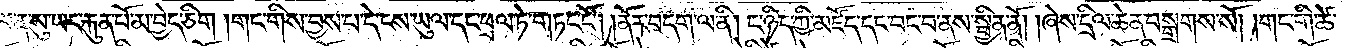ཡུལ་ན་སུ་ཡང་རྐུན་པོ་མ་བྱེད་ཅིག །གང་གིས་བྱས་པ་དེ་ངས་ཡུལ་དང་ཕྲལ་ཏེ་གཏང་ངོ༌། །ནོར་བདག་ལ་ནི་ང་ཉིད་ཀྱི་མཛོད་དང་བང་བ་ནས་སྦྱིན་ནོ། །ཞེས་དྲིལ་ཆེན་བསྒྲགས་སོ། །གང་གི་ཚེ་
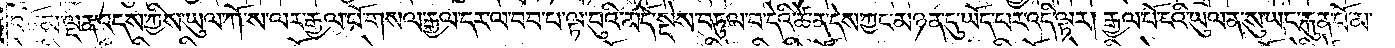བཅོམ་ལྡན་འདས་ཀྱིས་ཡུལ་ཀོ་ས་ལར་རྒྱལ་པོ་གསལ་རྒྱལ་དར་ལ་བབ་པ་ལྟ་བུའི་མདོ་སྡེས་བཏུལ་བ་དེའི་ཚེ་ན་དེས་ཀྱང་མཉན་དུ་ཡོད་པར་འདི་ལྟར། རྒྱལ་པོ་ངའི་ཡུལ་ན་སུ་ཡང་རྐུན་པོ་མ་
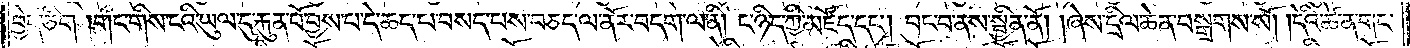བྱེད་ཅིག །གང་གིས་ངའི་ཡུལ་དུ་རྐུན་པོ་བྱས་པ་དེ་ཆད་པ་བསད་པས་བཅད་ལ་ནོར་བདག་ལ་ནི། ང་ཉིད་ཀྱི་མཛོད་དང༌། བང་བ་ནས་སྦྱིན་ནོ། །ཞེས་དྲིལ་ཆེན་བསྒྲགས་སོ། །དེའི་ཚེ་ན་གང་
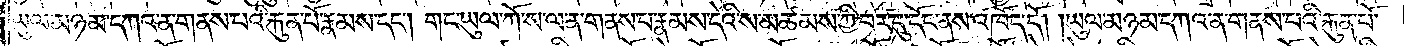ཡུལ་མཉམ་དཀའ་ན་གནས་པའི་རྐུན་པོ་རྣམས་དང༌། གང་ཡུལ་ཀོ་ས་ལ་ན་གནས་པ་རྣམས་དེའི་ས་མཚམས་ཀྱི་བར་དུ་དོང་ནས་འཁོད་དོ། །ཡུལ་མཉམ་དཀའ་ན་གནས་པའི་རྐུན་པོ་
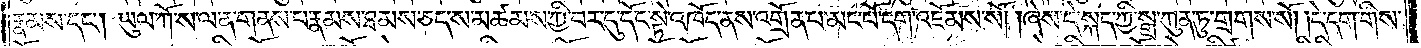རྣམས་དང༌། ཡུལ་ཀོ་ས་ལ་ན་གནས་པ་རྣམས་ཐམས་ཅད་ས་མཚམས་ཀྱི་བར་དུ་དོང་སྟེ་འཁོད་ནས་འགྲོན་པ་མང་པོ་དག་འཇོམས་སོ། །ཞེས་དེ་སྐད་ཀྱི་སྒྲ་ཀུན་ཏུ་གྲགས་སོ། །དེ་དག་གིས་
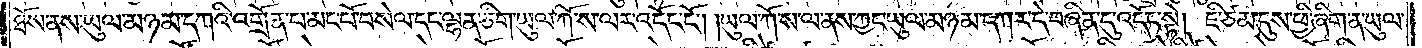ཐོས་ནས་ཡུལ་མཉམ་དཀའི་འགྲོན་པ་མང་པོ་བསེལ་དང་ལྷན་ཅིག་ཡུལ་ཀོ་ས་ལར་འདོང་ངོ༌། །ཡུལ་ཀོ་ས་ལ་ནས་ཀྱང་ཡུལ་མཉམ་དཀར་དེ་བཞིན་དུ་འདོང་སྟེ། ཇི་ཙམ་དུས་ཕྱི་ཞིག་ན་ཡུལ་
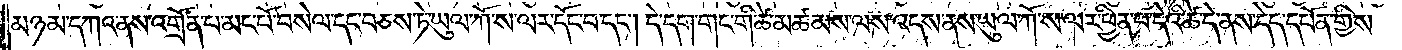མཉམ་དཀའ་ནས་འགྲོན་པ་མང་པོ་བསེལ་དང་བཅས་ཏེ་ཡུལ་ཀོ་ས་ལར་དོང་བ་དང༌། དེ་དག་གང་གི་ཚེ་མཚམས་ལས་འདས་ནས་ཡུལ་ཀོ་ས་ལར་ཕྱིན་པ་དེའི་ཚེ་དེ་ནས་དེད་དཔོན་གྱིས་
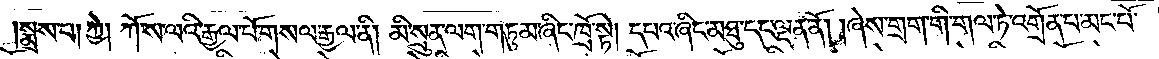སྨྲས་པ། ཀྱེ། ཀོ་ས་ལའི་རྒྱལ་པོ་གསལ་རྒྱལ་ནི། མི་སྲུན་ལག་གཏུམ་ཞིང་ཁྲོ་སྟེ། དཔའ་ཞིང་མཐུ་དང་ལྡན་ནོ། །ཞེས་གྲག་གི་གལ་ཏེ་འགྲོན་པ་མང་པོ་
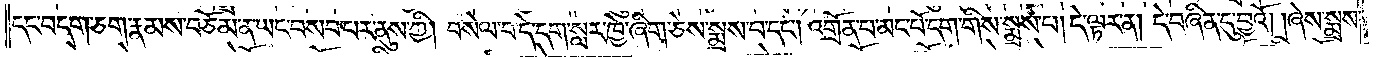དང་བདག་ཅག་རྣམས་བཅོམ་ན་ཡང་བསབ་པར་ནུས་ཀྱི། བསེལ་བ་དེ་དག་སླར་ཁྱེ་ཞིག་ཅེས་སྨྲས་པ་དང༌། འགྲོན་པ་མང་པོ་དག་གིས་སྨྲས་པ། དེ་ལྟར་ན། དེ་བཞིན་དུ་བྱའོ། །ཞེས་སྨྲས་
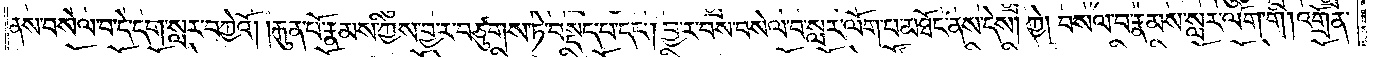ནས་བསེལ་བ་དེ་དག་སླར་བཀྱེའོ། །རྐུན་པོ་རྣམས་ཀྱིས་བྱ་ར་བཙུགས་ཏེ་བསྡད་པ་དང༌། བྱ་ར་བས་བསེལ་བ་སླར་ལོག་པ་མཐོང་ནས་དེས། ཀྱེ། བསལ་བ་རྣམས་སླར་ལོག་གི། འགྲོན་
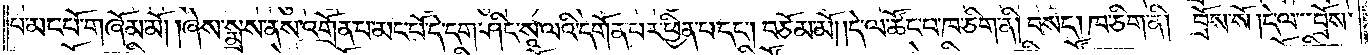པ་མང་པོ་གཞོམ་མོ། །ཞེས་སྨྲས་ནས་འགྲོན་པ་མང་པོ་དེ་དག་ཤིང་སཱ་ལའི་དགོན་པར་ཕྱིན་པ་དང༌། བཅོམ་མོ། །དེ་ལ་ཚོང་པ་ཁ་ཅིག་ནི། བསད། ཁ་ཅིག་ནི། བྲོས་སོ། །དེ་ལ་བྲོས་
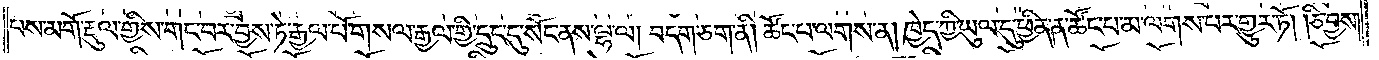བས་མགོ་རྡུལ་གྱིས་གང་བར་བྱས་ཏེ་རྒྱལ་པོ་གསལ་རྒྱལ་གྱི་དྲུང་དུ་སོང་ནས་ལྷ་ལ། བདག་ཅག་ནི། ཚོང་པ་ལགས་ན། ཁྱེད་ཀྱི་ཡུལ་དུ་ཕྱིན་ན་ཚོང་པ་མ་ལགས་པར་གྱུར་ཏོ། །ཅི་བྱས་
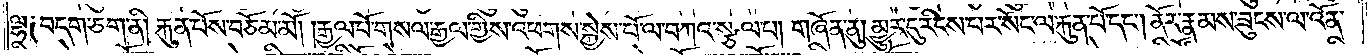ལྷ༑ བདག་ཅག་ནི། རྐུན་པོས་བཅོམ་མོ། །རྒྱལ་པོ་གསལ་རྒྱལ་གྱིས་འཕགས་སྐྱེས་པོ་ལ་བཀའ་སྩལ་པ། གཞོན་ནུ། མྱུར་དུ་རིངས་པར་སོང་ལ་རྐུན་པོ་དང༌། ནོར་རྣམས་ཟུངས་ལ་འོན་
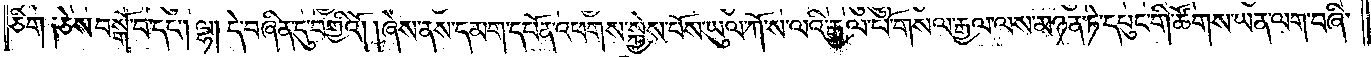ཅིག །ཅེས་བསྒོ་བ་དང༌། ལྷ། དེ་བཞིན་དུ་བགྱིའོ། །ཞེས་ནས་དམག་དཔོན་འཕགས་སྐྱེས་པོས་ཡུལ་ཀོ་ས་ལའི་རྒྱལ་པོ་གསལ་རྒྱལ་ལས་མཉན་ཏེ་དཔུང་གི་ཚོགས་ཡན་ལག་བཞི་
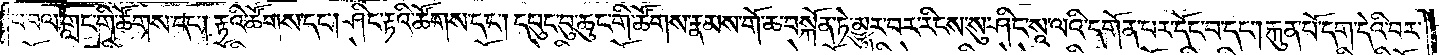པ་བལ་གླང་གི་ཚོགས་དང༌། རྟའི་ཚོགས་དང༌། ཤིང་རྟའི་ཚོགས་དང༌། དཔུང་བུ་ཆུང་གི་ཚོགས་རྣམས་གོ་ཆ་བསྐོན་ཏེ་མྱུར་བར་རིངས་སུ་ཤིང་སཱ་ལའི་དགོན་པར་དོང་བ་དང༌། རྐུན་པོ་དག་དེའི་བར་
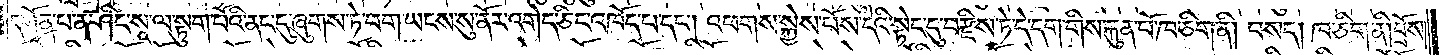དགོན་པ་ན་ཤིང་སཱ་ལ་སྟུག་པོའི་ནང་དུ་ཞུགས་ཏེ་བག་ཡངས་སུ་ནོར་འགོད་ཅིང་འཁོད་པ་དང༌། འཕགས་སྐྱེས་པོས་དེའི་སྟེང་དུ་བརྫིས་ཏེ་དེ་དག་གིས་རྐུན་པོ་ཁ་ཅིག་ནི། བསད། ཁ་ཅིག་ནི། བྲོས་
